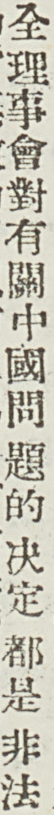全理事會對有關中國問題的 決定 都是 非法
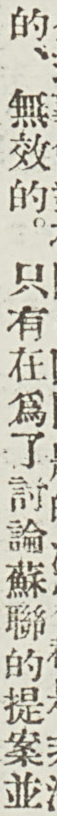的、無效的。只有在爲了討論蘇聯的提案並
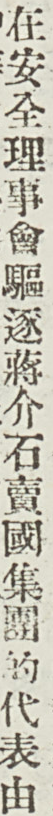在安全理事會驅逐蔣介石賣國集團的代表由
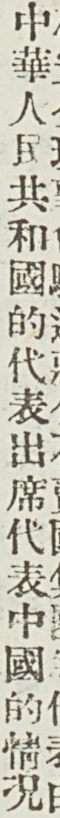中華人民共和國的代表出席代表中國的情況
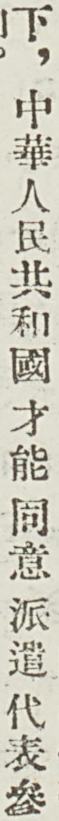下，中華人民共和國 才能 同意 派遣代表參
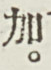加。
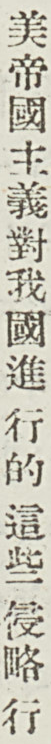美帝國主義對我國進行的 這些 侵略 行
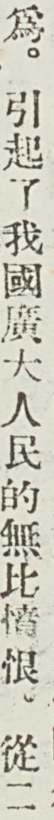爲。引起了我國廣大人民的無比憤恨。從二
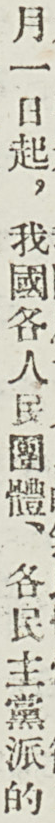月一日起，我國各人民團體、各民主黨派的
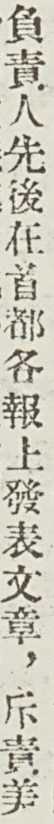負責人先後在首都各報上發表文章，斥責美
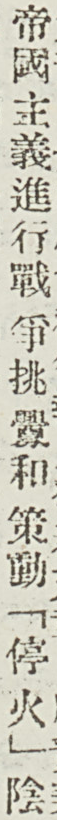帝國主義進行戰 爭挑 釁和 策動「停火」陰
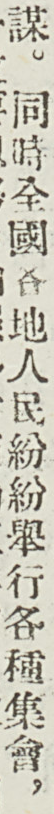謀。同時全國各地人民紛紛舉行各種集會，
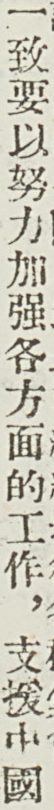一致要以努力加強各方面的工作，支援中國
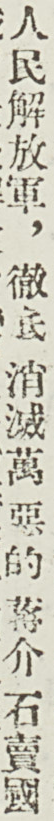人民解放軍，徹底 消滅萬惡的 蔣介石賣國
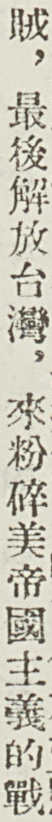賊，最後解放台灣，來粉碎美帝國主義的戰
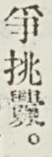爭挑釁。
